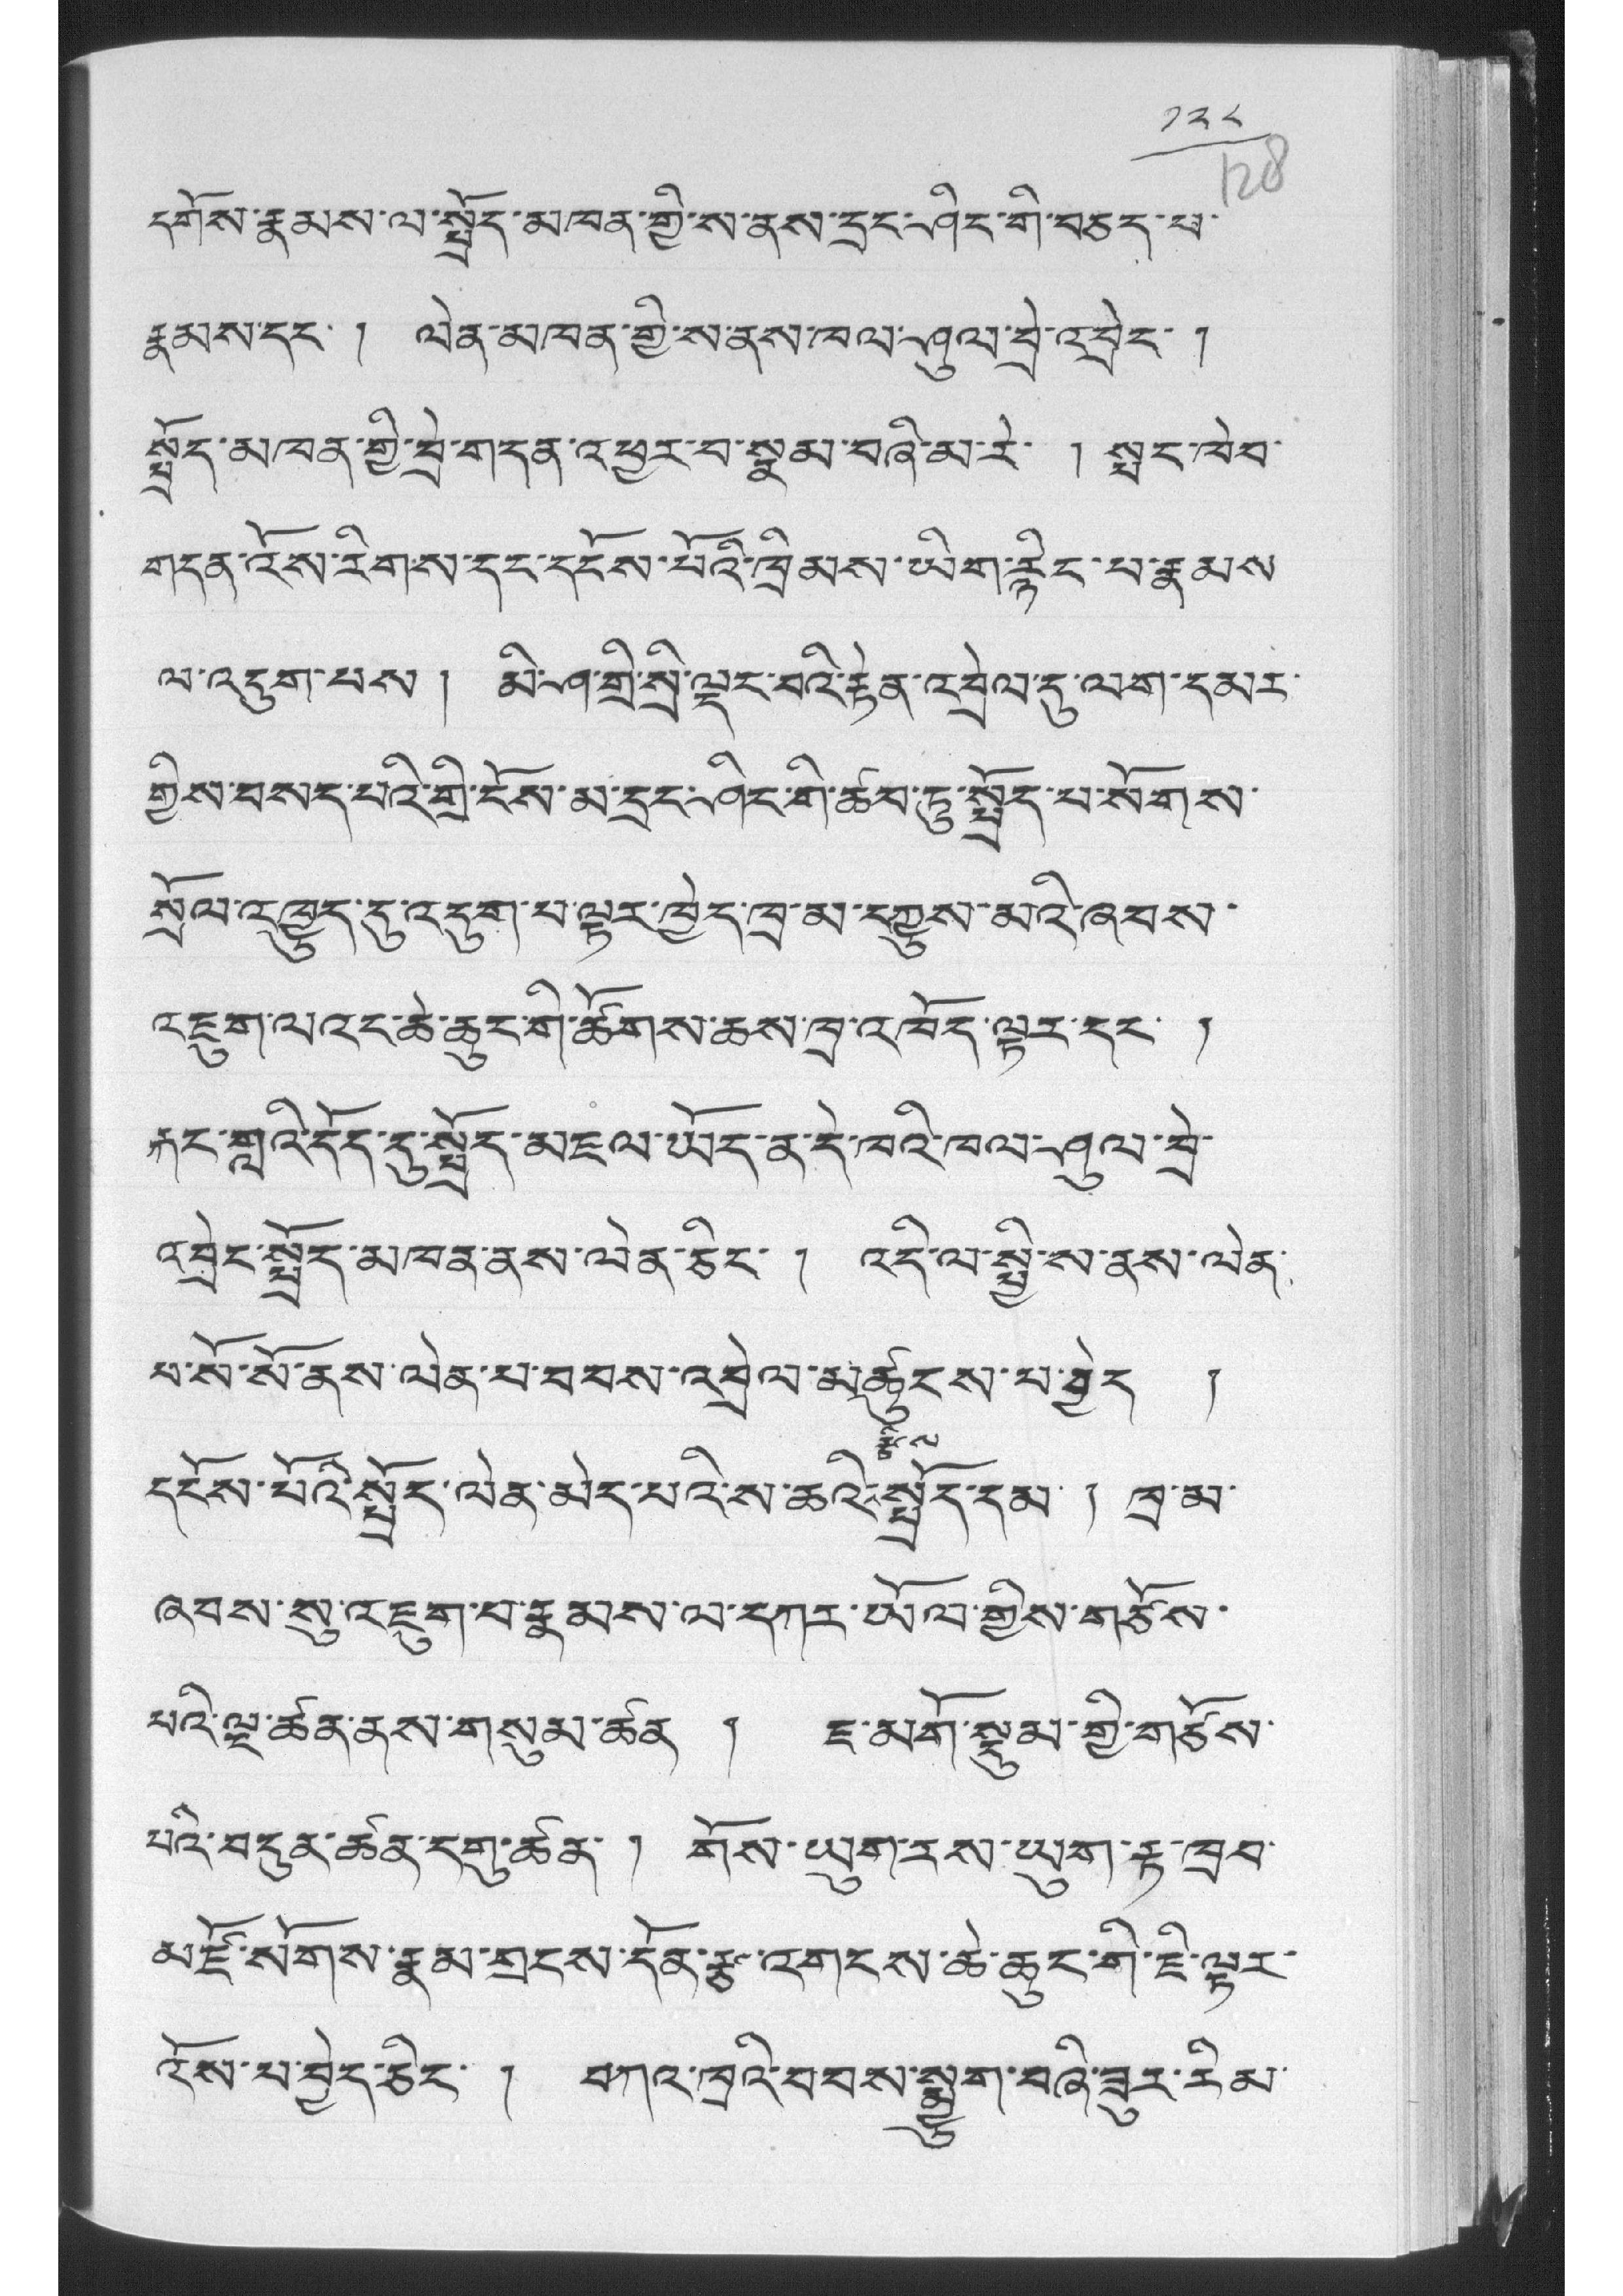༡༢༨
དགོས་རྣམས་ལ་སྤྲོད་མཁན་གྱི་ས་ནས་དྲང་ཤིང་གི་བཅད་པ་
རྣམས་དང་། ལེན་མཁན་གྱི་ས་ནས་ཁལ་ཤུལ་བྲེ་འབྲེང་ །
སྤྲོད་མཁན་གྱི་བྲེ་གདན་འཕྱར་བ་སྣམ་བཞི་མ་རེ་ ། སྤང་ཁེབ་
གདན་འོས་རིགས་དང་དངོས་པོའི་ཁྲིམས་ཡིག་རྙིང་པ་རྣམས་
ལ་འདུག་པས ། མི་ཤ་གྲི་སྲི་ལྡང་བའི་རྟེན་འབྲེལ་དུ་ལག་དམར་
གྱིས་བསད་པའི་གྲི་ངོས་མ་དྲང་ཤིང་གི་ཚབ་ཏུ་སྤྲོད་པ་སོགས་
སྲོལ་འཁྱུད་དུ་འདུག་པ་ལྟར་ཁྱེད་ཁྲ་མ་དཀྱུས་མའི་ཞབས་
འཇུག་ལའང་ཆེ་ཆུང་གི་ཚོགས་ཆས་ཁྲི་འཁོད་ལྟར་དང་ །
རྐང་གླའི་དོད་དུ་སྤྲོད་མཇལ་ཡོད་ན་དེ་ཁའི་ཁལ་ཤུལ་བྲེ་
འབྲེང་སྤྲོད་མཁན་ནས་ལེན་ཅིང་ ། འདི་ལ་སྤྱི་ས་ནས་ལེན་
པ་སོ་སོ་ནས་ལེན་པ་བབས་འབྲེལ་མཚུངས་པ་བྱེད །
དངོས་པོའི་སྤྲོད་ལེན་མེད་པའི་ས་ཆའི་རྩིས་སྤྲོད་དམ་ ། ཁྲ་མ་
ཞབས་སུ་འཇུག་པ་རྣམས་ལ་དཀར་ཡོལ་གྱིས་གཙོས་
པའི་ལྔ་ཚན་ནས་གསུམ་ཚན ། ཇ་མགོ་སྡུམ་གྱི་གཙོས་
པའི་བདུན་ཚན་དགུ་ཚན་ ། གོས་ཡུག་རས་ཡུག་རྟ་ཁྲབ་
མཛོ་སོགས་རྣམ་གྲངས་དོན་རྩ་འགངས་ཆེ་ཆུང་གི་ཇི་ལྟར་
འོས་པ་བྱེད་ཅིང་ ། བཀའ་ཁྲའི་བབས་སྨྱུག་བཞི་ཟུར་རིམ་
